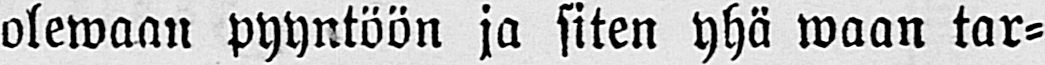olewaan pyyntöön ja siten yhä waan tar-
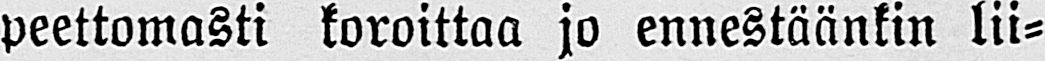peettomasti koroittaa jo ennestäänkin lii-
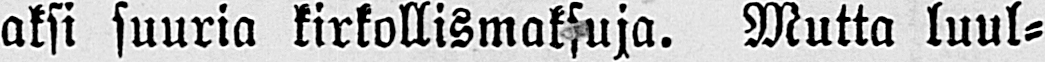aksi suuria kirkollismaksuja. Mutta luul-
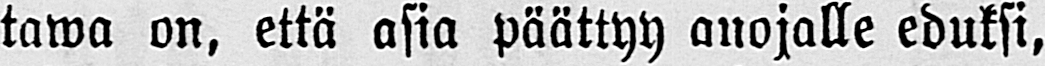tawa on, että asia päättyy anojalle eduksi,
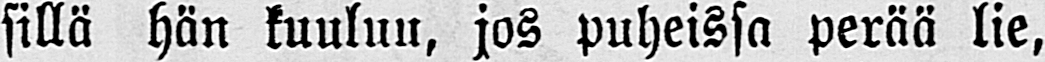sillä hän kuuluu, jos puheissa perää lie,
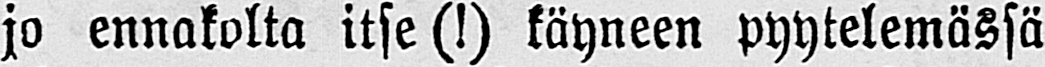jo ennakolta itse(!) käyneen pyytelemässä
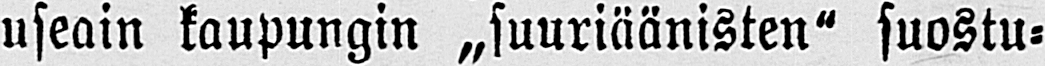useain kaupungin „suuriäänisten" suostu-
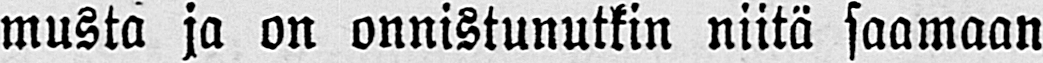musta ja on onnistunutkin niitä saamaan
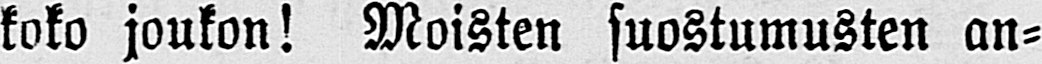koko joukon! Moisten suostumusten an-
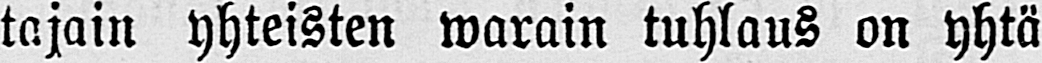tajain yhteisten warain tuhlaus on yhtä
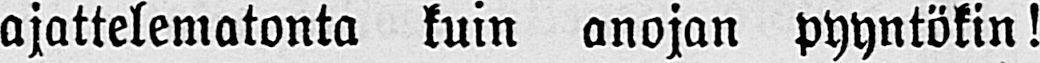ajattelematonta kuin anojan pyyntökin!
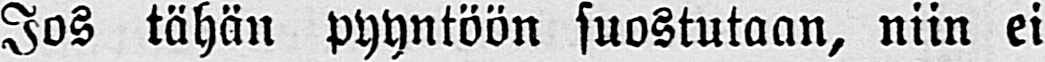Jos tähän pyyntöön suostutaan, niin ei
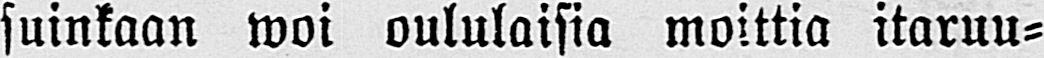suinkaan woi oululaisia moittia itaruu-
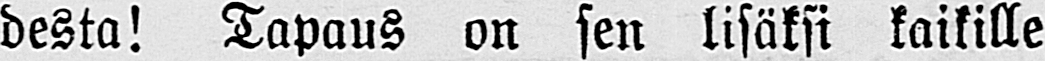desta! Tapaus on sen lisäksi kaikille
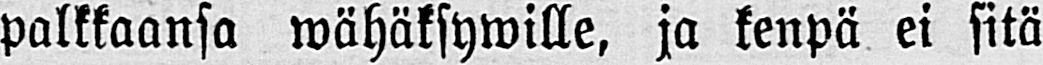palkkaansa wähäksywille, ja kenpä ei sitä
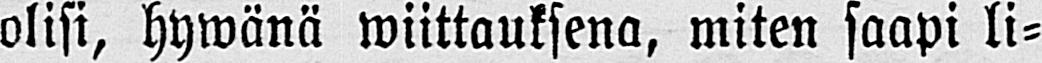olisi, hywänä wiittauksena, miten saapi li-
